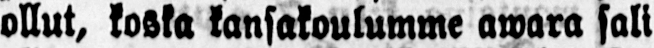ollut, koska kansakoulumme awara sali
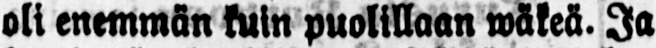oli enemmän kuin puolillaan wäkeä. Ja
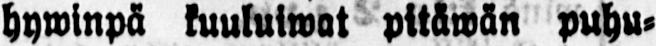hywinpä kuuluiwat pitäwän puhu-
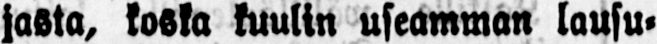jasta, koska kuulin useamman lausu-
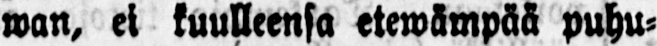wan, ei kuulleensa etewämpää puhu-
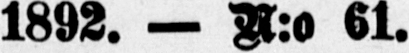1892. — N:o 61.
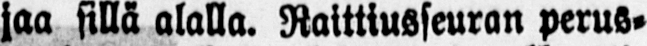jaa sillä alalla. Raittiusseuran perus-
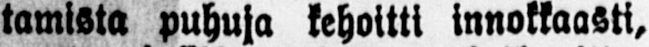tamista puhuja kehoitti innokkaasti,
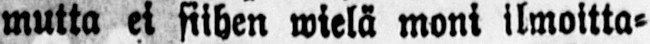mutta ei siihen wielä moni ilmoitta-
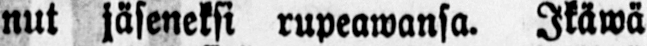nut jäseneksi rupeawansa. Ikäwä
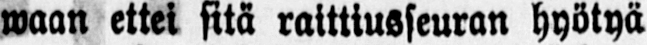waan ettei sitä raittiusseuran hyötyä
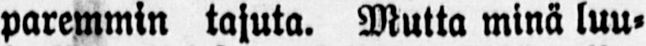paremmin tajuta. Mutta minä luu-
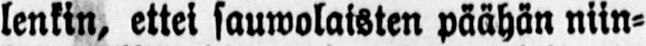lenkin, ettei sauwolaisten päähän niin-
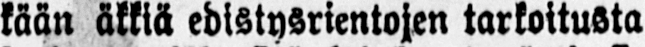kään äkkiä edistysrientojen tarkoitusta
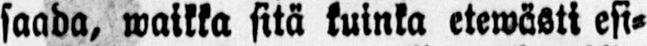saada, waikka sitä kuinka etewästi esi-
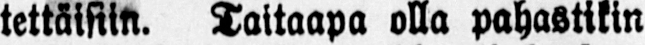tettäisiin. Laitaapa olla pahastikin
